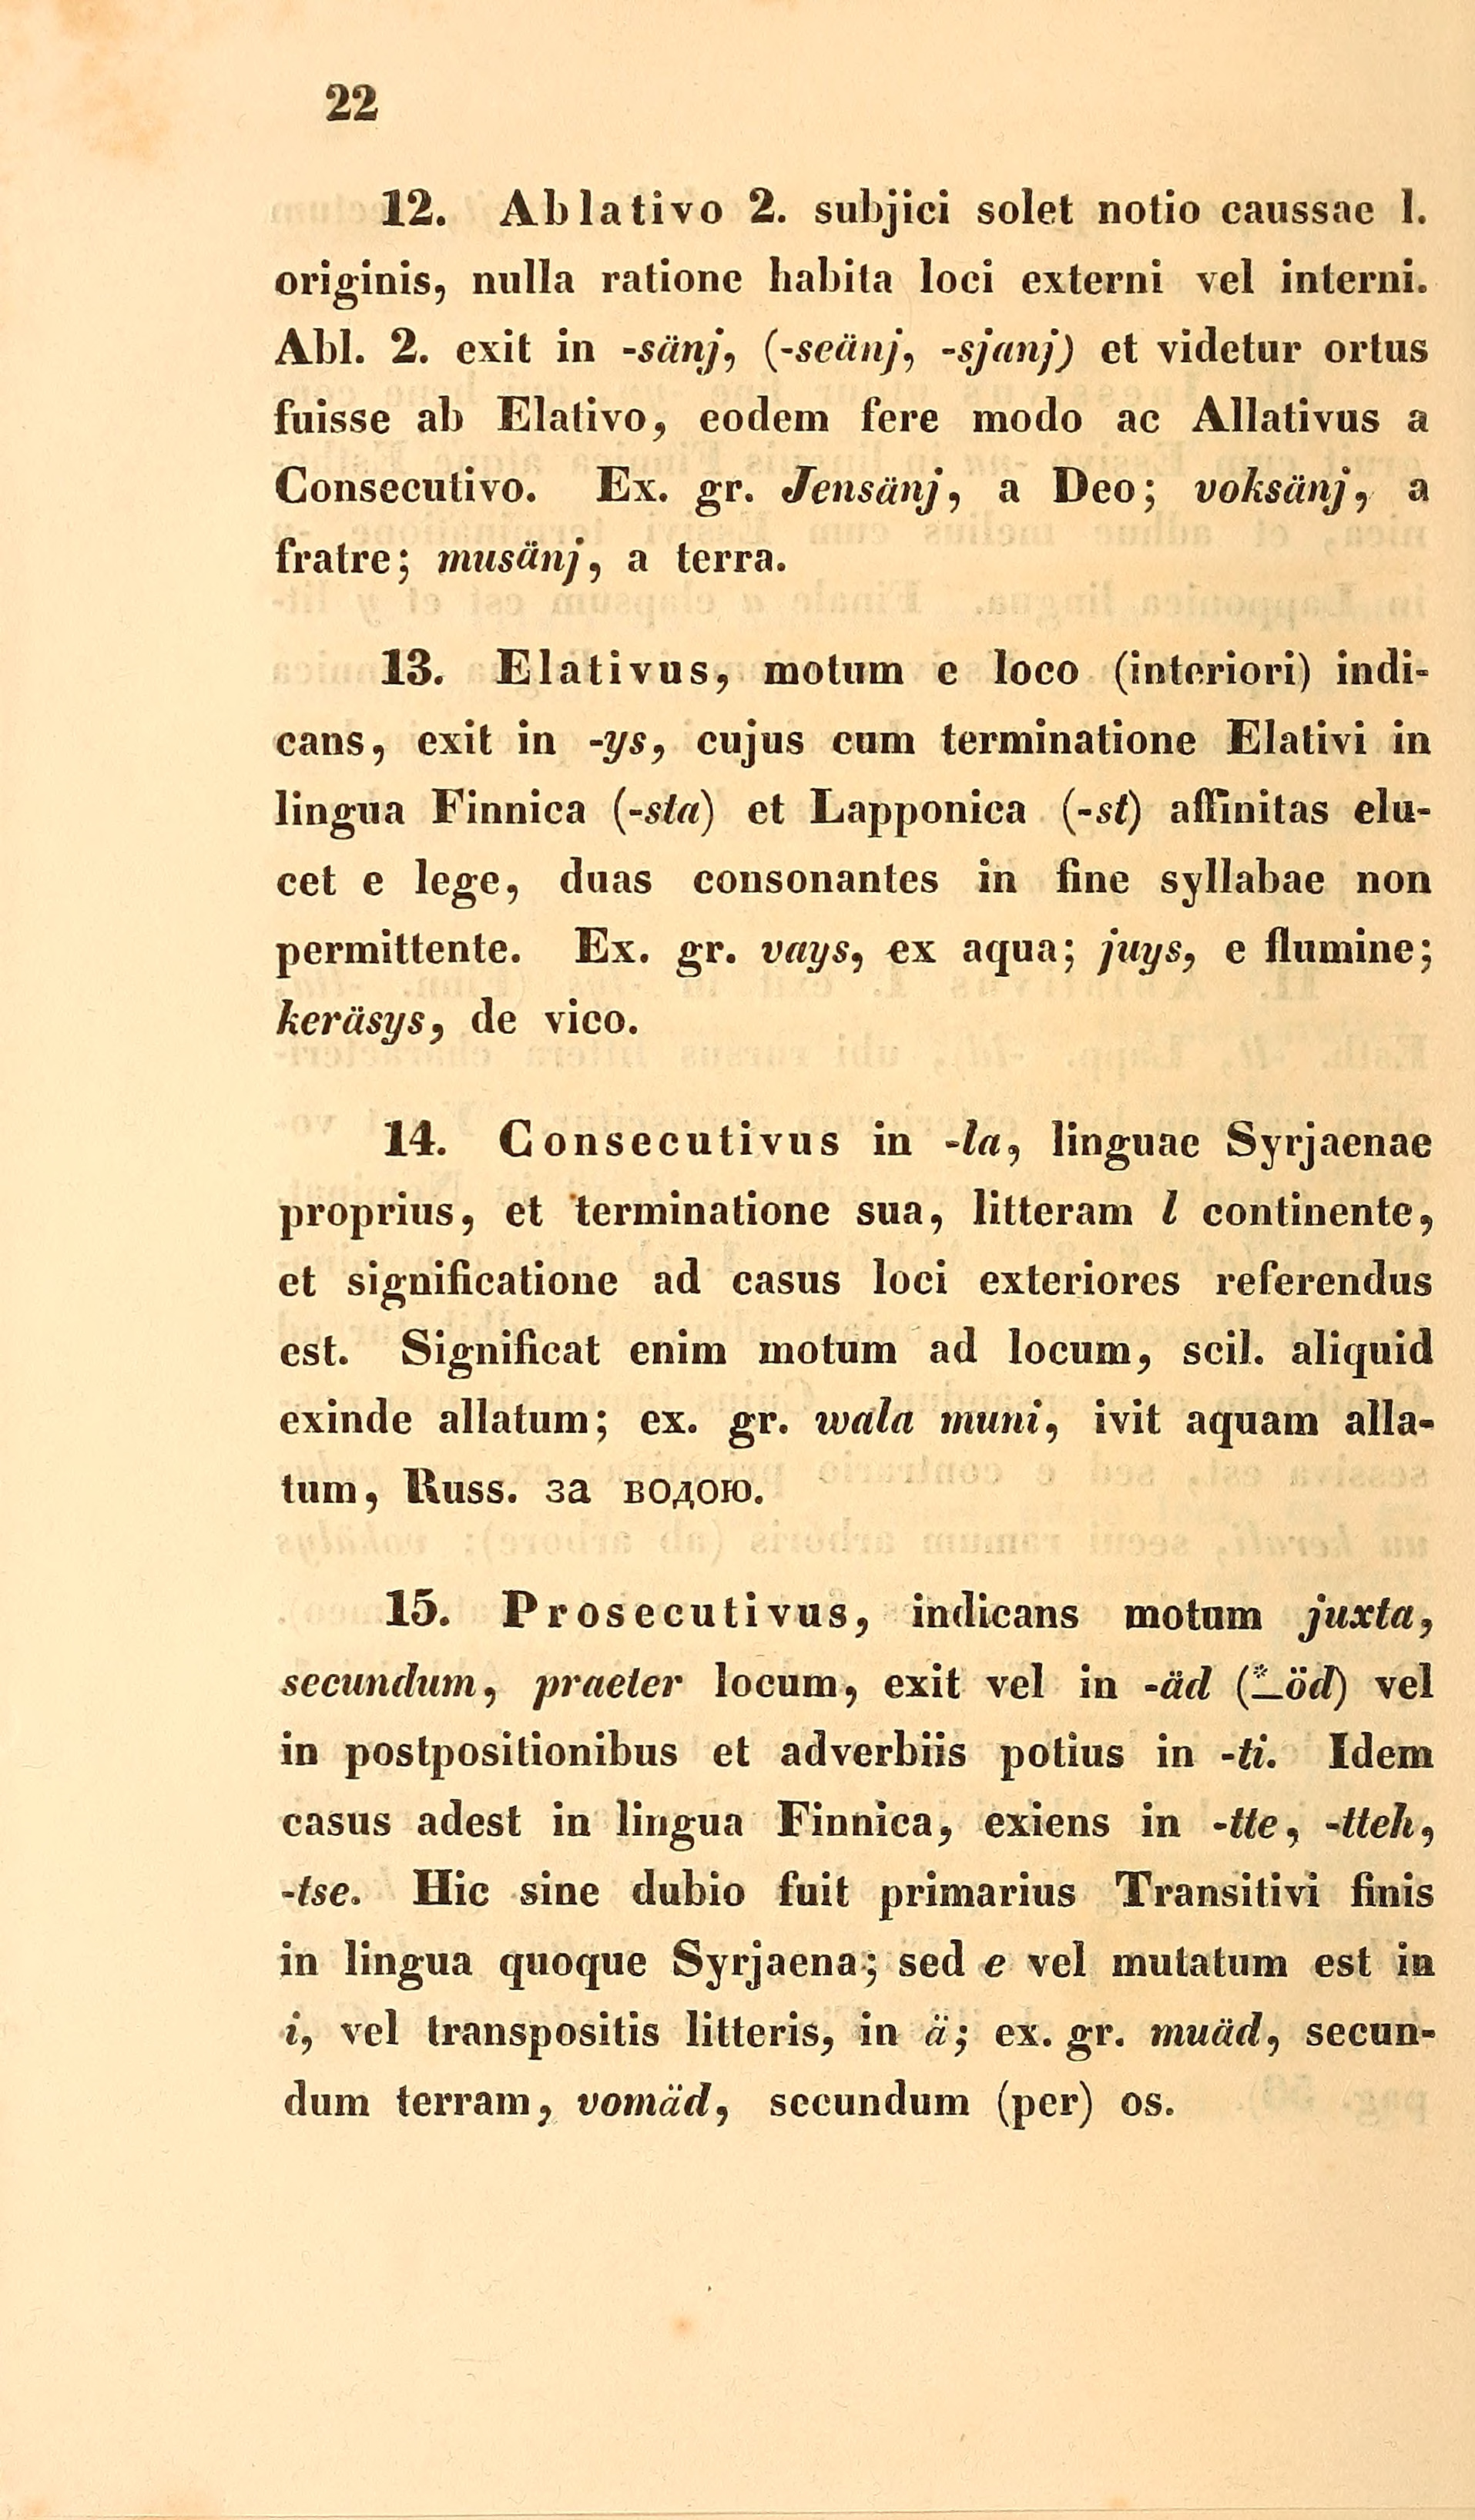22
12. Ablativo 2. subjici solet notio caussae l.
originis, nulla ratione habita loci externi vel interni.
Abl. 2. exit in -sänj, (-seänj, -sjanj) et videtur ortus
fuisse ab Elativo, eodem fere modo ac Allativus a
Consecutivo. Ex. gr. Jensänj, a Deo; voksänj, a
fratre; musänj, a terra.
13. Elativus mot e loco (interori) indi-
cans, exit in -ys, cujus cum terminatione Elativi in
lingua Finnica (-sta) et Lapponica (-st) affinitas elu-
cet e lege, duas consonantes in fine syllabae non
permittente. Ex. gr. vays, ex aqua; juys, e flumine;
keräsys, de vico.
14. Consecutivus in -la, linguae Syrjaenae
proprius, et terminatione sua, litteram l continente,
et significatione ad casus loci exteriores referendus
est. Significat enim motum ad locum, scil. aliquid
exinde allatum; ex. gr. wala muni, ivit aquam alla-
tum, Russ. за водою.
15. Prosecutivus, indicans motum juxta,
secundum, praeter locum, exit vel in -äd (*_öd) vel
in postpositionibus et adverbiis potius in -ti. Idem
casus adest in lingua Finnica, exiens in -tte, -tteh,
-tse. Hic sine dubio fuit primarius Transitivi finis
in lingua quoque Syrjaena; sed e vel mutatum est in
i, vel transpositis litteris, in ä; ex. gr. muäd, secun-
dum terram, vomäd, secundum (per) os.
